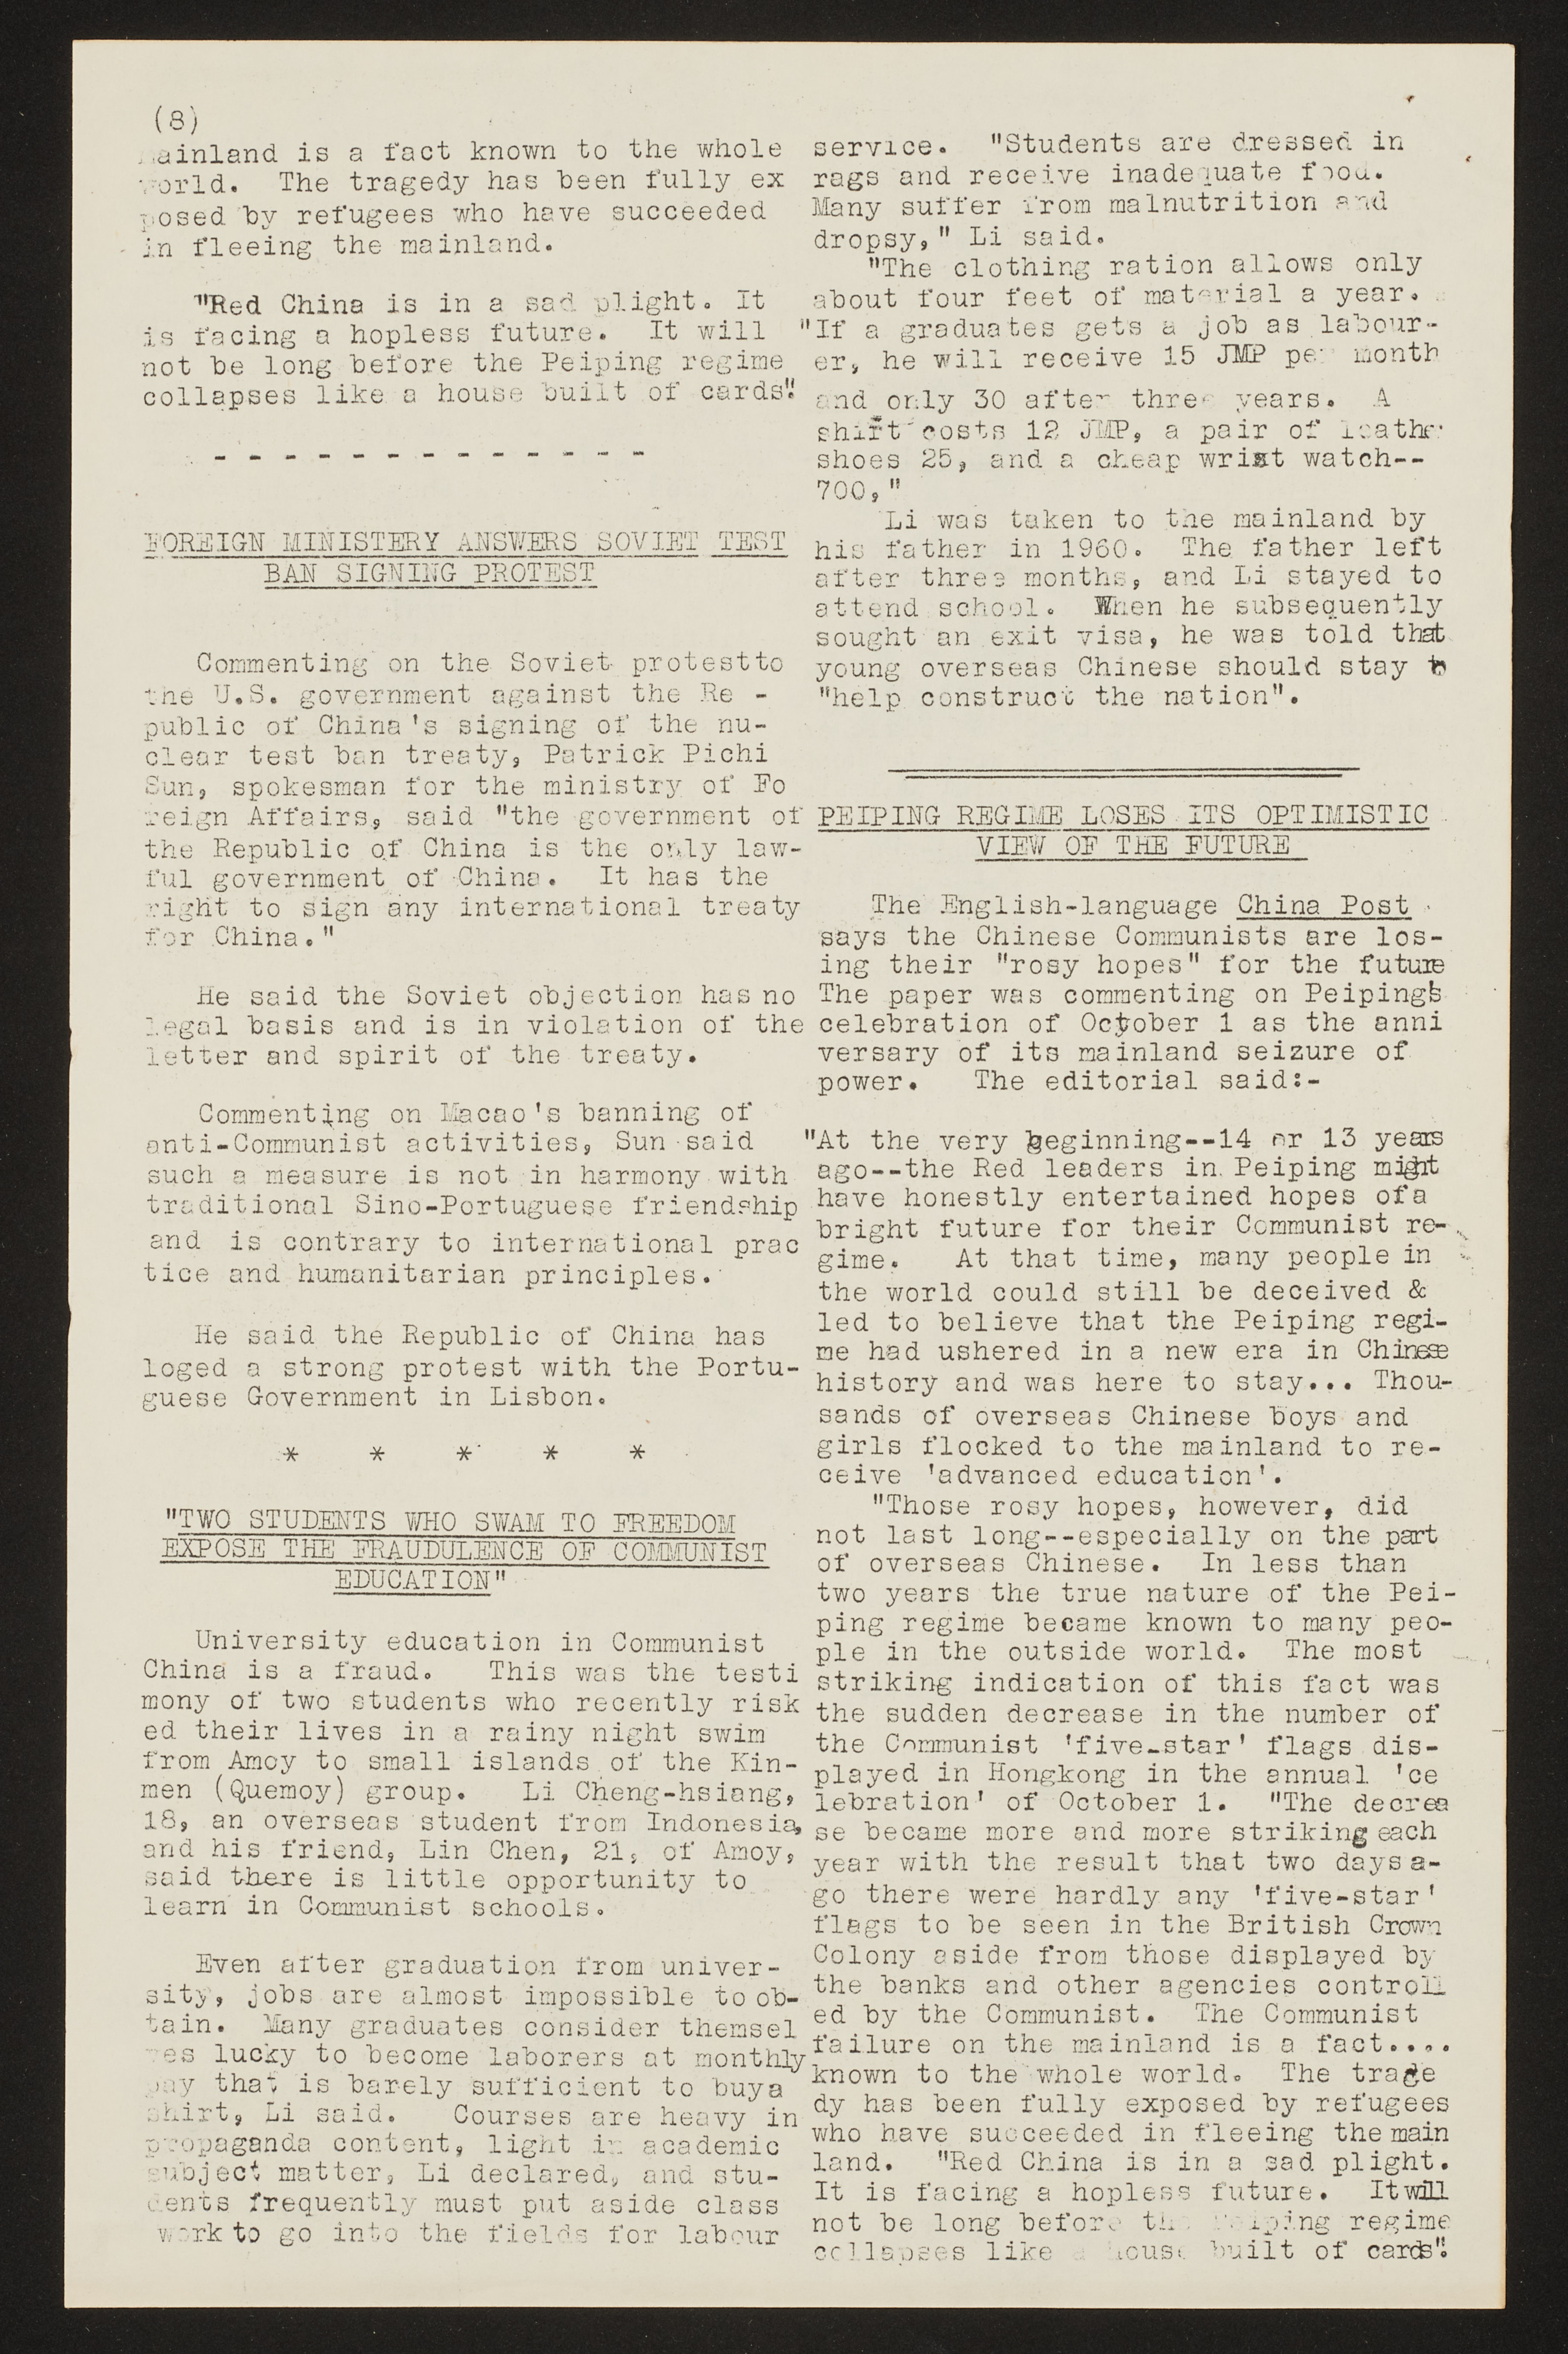(8)
mainland is a fact known to the whole
world. The tragedy has been fully ex
posed by refugees who have succeeded
in fleeing the mainland.
"Red China is in a sad plight. It
is facing a hopless future. It will
not be long before the Peiping regime
collapses like a house built of cards".
service. "Students are dressed in
rags and receive inadequate food.
Many suffer from malnutrition and
dropsy," Li said.
"The clothing ration allows only
about four feet of material a year.
"If a graduates gets a job as labour-
er, he will receive 15 JMP per month
and only 30 after three years. A
shirt costs 12 JMP, a pair of leather
shoes 25, and a cheap wrist watch--
700,"
Li was taken to the mainland by
his father in 1960. The father left
after three months, and Li stayed to
attend school. When he subsequently
sought an exit visa, he was told that
young overseas Chinese should stay to
"help construct the nation".
FOREIGN MINISTERY ANSWERS SOVIET TEST
BAN SIGNING PROTEST
Commenting on the Soviet protest to
the U.S. government against the Re-
public of China's signing of the nu-
clear test ban treat, Patrick Pichi
Sun, spokesman for the ministry of Fo
reign Affairs, said "the government of
the Republic of China is the only law
ful government of China. It has the
right to sign any international treaty
for China."
PEIPING REGIME LOSES ITS OPTIMISTIC
VIEW OF THE FUTURE
He said the Soviet objection has no
legal basis and is in violation of the
letter and spirit of the treaty.
Commenting on Macao's banning of
anti-Communist activities, Sun said
such a measure is not in harmony with
traditional Sino-Portuguese friendship
and is contrary to international prac
tice and humanitarian principles.
He said the Republic of China has
loged a strong protest with the Portu-
guese Government in Lisbon.
"At the very beginning-- 14 or 13 years
ago--the Red leaders in Peiping might
have honestly entertained hopes of a
bright future for their Communist re-
gime. At that time, many people in
the world could still be deceived &
led to believe that the Peiping regi-
me had ushered in a new era in Chinese
history and was here to stay... Thou-
sands of overseas Chinese boys and
girls flocked to the mainland to re-
ceive 'advanced education'.
"TWO STUDENTS WHO SWAM TO FREEDOM
EXPOSE THE FRAUDULENCE OF COMMUNIST
EDUCATION"
University education in Communist
China is a fraud. This was the testi
mony of two students who recently risk
ed their lives in a rainy night swim
from Amoy to small islands of the Kin-
men (Quemoy) group. Li Cheng-hsiang,
18, an overseas student from Indonesia
and his friend, Lin Chen, 21, of Amoy,
said there is little opportunity to
learn in Communist schools.
Even after graduation from univer-
sity, jobs are almost impossible to ob-
tain. Many graduates consider themsel
ves lucky to become laborers at monthly
pay that is barely sufficient to buy a
shirt, Li said. Courses are heavy in
propaganda content, light in academic
subject matter, Li declared, and stu-
dents frequently must put aside class
work to go into the fields for labour
The English language China Post
says the Chinese Communists are los-
ing their "rosy hopes" for the future
The paper was commenting on Piping's
celebration of October 1 as the anni
versary of its mainland seizure of
power. The editorial said:-
"Those rosy hopes, however, did
not last long--especially on the part
of overseas Chinese. In less than
two years the true nature of the Pei-
ping regime became known to many peo-
ple in the outside world. The most
striking indication of this fact was
the sudden decrease in the number of
the Communist 'five-star', flags dis-
played in Hongkong in the annual 'ce
lebration of October 1. "The decrea
se became more and more striking each
year with the result that two days a-
go there were hardly any 'five-star'
flags to be seen in the British Crown
Colony aside from those displayed by
the banks and other agences controll
ed by the Communist. The Communist
failure on the mainland is a fact....
known to the whole world. The trage
dy has been fully exposed by refugees
who have succeeded in fleeing the main
land. "Red China is in a sad plight.
It is facing a nopless future. It will
not be long before thing regime
collapses like a house built of cards".
